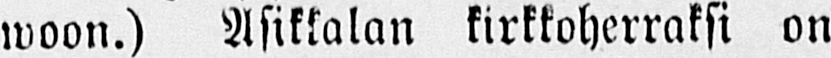woon.) Asikkalan kirkkoherraksi on
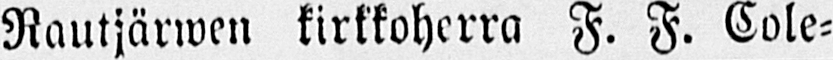Rautjärwen kirkkoherra F. F. Cole-
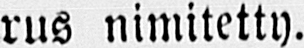rus nimitetty.
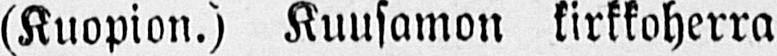(Kuopion.) Kuusamon kirkkoherra
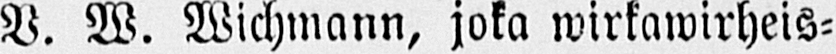V. W. Wichmann, joka wirkawirheis-
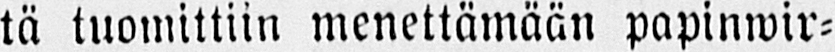tä tuomittiin menettämään papinwir-
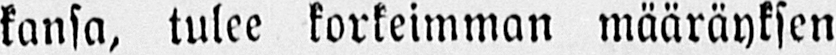kansa, tulee korkeimman määräyksen
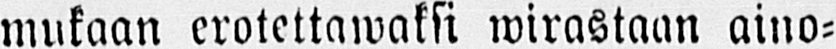mukaan erotettawaksi wirastaan aino-
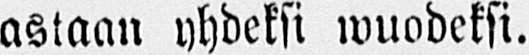astaan yhdeksi wuodeksi.
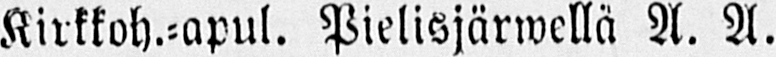Kirkkoh.-apul. Pielisjärwellä A. A.
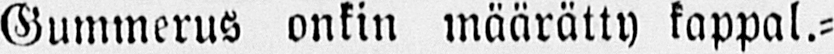Gummerus onkin määrätty kappal.-
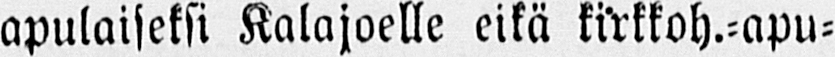apulaiseksi Kalajoelle eikä kirkkoh.-apu-
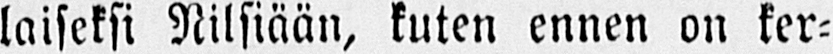laiseksi Nilsiään, kuten ennen on ker-
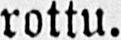rottu.
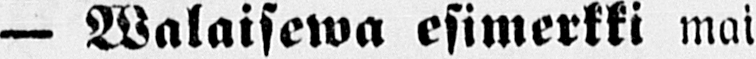— Walaisewa esimerkki mai-
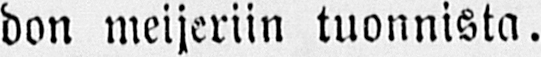don meijeriin tuonnista.
